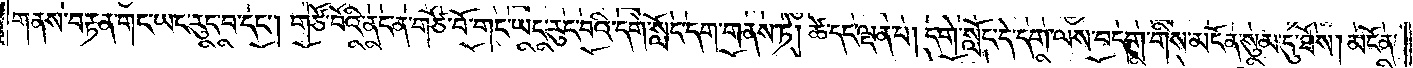གནས་བརྟན་གང་ཡང་རུང་བ་དང༌། གཙོ་བོའི་ནང་ན་གཙོ་བོ་གང་ཡང་རུང་བའི་དགེ་སློང་དག་གནས་ཏེ། ཚེ་དང་ལྡན་པ། དགེ་སློང་དེ་དག་ལས་བདག་གིས་མངོན་སུམ་དུ་ཐོས། མངོན་
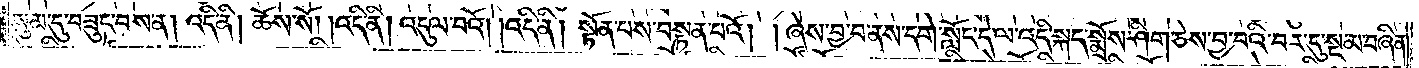སུམ་དུ་བཟུང་བས་ན། འདི་ནི། ཆོས་སོ། །འདི་ནི། འདུལ་བའོ། །འདི་ནི། སྟོན་པས་བསྟན་པའོ། །ཞེས་བྱ་བ་ནས་དགེ་སློང་དེ་ལ་འདི་སྐད་སྨྲོས་ཤིག་ཅེས་བྱ་བའི་བར་དུ་སྔ་མ་བཞིན་
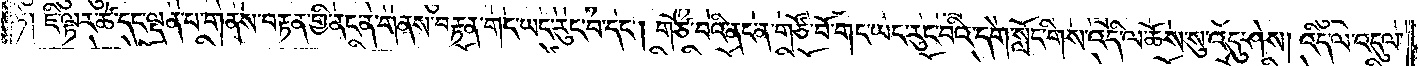ཏེ། ཇི་ལྟར་ཚེ་དང་ལྡན་པ་གནས་བརྟན་གྱི་ནང་ན་གནས་བརྟན་གང་ཡང་རུང་བ་དང༌། གཙོ་བའི་ནང་ན་གཙོ་བོ་གང་ཡང་རུང་བའི་དགེ་སློང་གིས་འདི་ལ་ཆོས་སུ་འདུ་ཤེས། འདི་ལ་འདུལ་
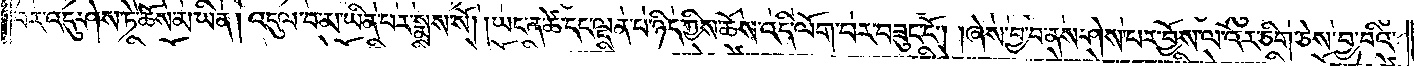བར་འདུ་ཤེས་ཏེ་ཆོས་མ་ཡིན། འདུལ་བ་མ་ཡིན་པར་སྨྲས་སོ། །ཡང་ན་ཚེ་དང་ལྡན་པ་ཉིད་ཀྱིས་ཆོས་འདི་ལོག་པར་བཟུང་ངོ༌། །ཞེས་བྱ་བ་ནས་ཤེས་པར་བྱོས་ལ་འོར་ཅིག་ཅེས་བྱ་བའི་
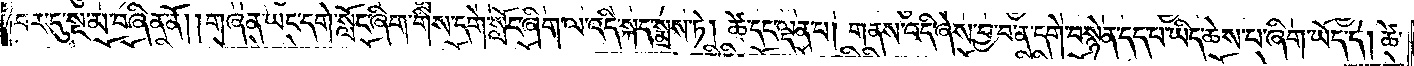བར་དུ་སྔ་མ་བཞིན་ནོ། །གཞན་ཡང་དགེ་སློང་ཞིག་གིས་དགེ་སློང་ཞིག་ལ་འདི་སྐད་སྨྲས་ཏེ། ཚེ་དང་ལྡན་པ། གནས་འདི་ཞེས་བྱ་བ་ན་དགེ་བསྙེན་དད་པ་ཡིད་ཆེས་པ་ཞིག་ཡོད་དེ། ཚེ་
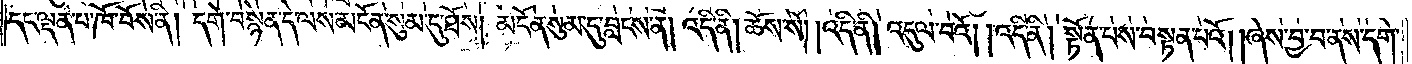དང་ལྡན་པ་ཁོ་བོས་ནི། དགེ་བསྙེན་དེ་ལས་མངོན་སུམ་དུ་ཐོས། མངོན་སུམ་དུ་བླངས་ན། འདི་ནི། ཆོས་སོ། །འདི་ནི། འདུལ་བའོ། །འདི་ནི། སྟོན་པས་བསྟན་པའོ། །ཞེས་བྱ་བ་ནས་དགེ་
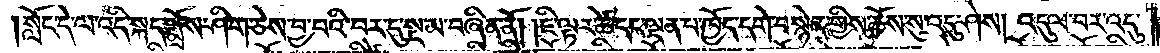སློང་དེ་ལ་འདི་སྐད་སྨྲོས་ཤིག་ཅེས་བྱ་བའི་བར་དུ་སྔ་མ་བཞིན་ནོ། །ཇི་ལྟར་ཚེ་དང་ལྡན་པ་ཁྱོད་དགེ་བསྙེན་གྱིས་ཆོས་སུ་འདུ་ཤེས། འདུལ་བར་འདུ་
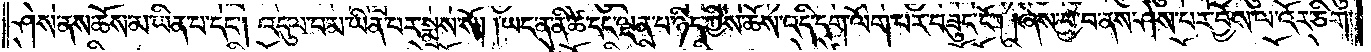ཤེས་ནས་ཆོས་མ་ཡིན་པ་དང༌། འདུལ་བ་མ་ཡིན་པར་སྨྲས་སོ། །ཡང་ན་ནི་ཚེ་དང་ལྡན་པ་ཉིད་ཀྱིས་ཆོས་འདི་དག་ལོག་པར་བཟུང་ངོ༌། །ཞེས་བྱ་བ་ནས་ཤེས་པར་བྱོས་ལ་འོར་ཅིག་
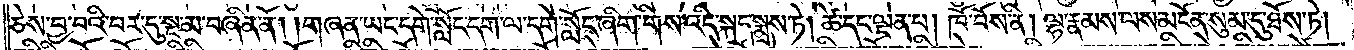ཅེས་བྱ་བའི་བར་དུ་སྔ་མ་བཞིན་ནོ། །གཞན་ཡང་དགེ་སློང་དག་ལ་དགེ་སློང་ཞིག་གིས་འདི་སྐད་སྨྲས་ཏེ། ཚེ་དང་ལྡན་པ། ཁོ་བོས་ནི། ལྷ་རྣམས་ལས་མངོན་སུམ་དུ་ཐོས་ཏེ།
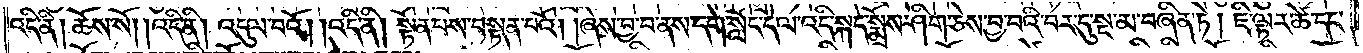འདི་ནི། ཆོས་སོ། །འདི་ནི། འདུལ་བའོ། །འདི་ནི། སྟོན་པས་བསྟན་པའོ། །ཞེས་བྱ་བ་ནས་དགེ་སློང་དེ་ལ་འདི་སྐད་སྨྲོས་ཤིག་ཅེས་བྱ་བའི་བར་དུ་སྔ་མ་བཞིན་ཏེ། ཇི་ལྟར་ཚེ་དང་
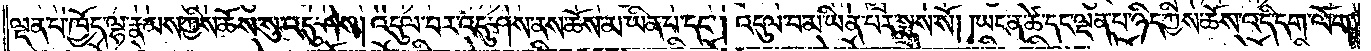ལྡན་པ་ཁྱོད་ལྷ་རྣམས་ཀྱིས་ཆོས་སུ་འདུ་ཤེས། འདུལ་བར་འདུ་ཤེས་ནས་ཆོས་མ་ཡིན་པ་དང༌། འདུལ་བ་མ་ཡིན་པར་སྨྲས་སོ། །ཡང་ན་ཚེ་དང་ལྡན་པ་ཉིད་ཀྱིས་ཆོས་འདི་དག་ལོག་
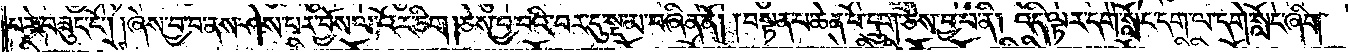པར་བཟུང་ངོ༌། །ཞེས་བྱ་བ་ནས་ཤེས་པར་བྱོས་ལ་འོར་ཅིག །ཅེས་བྱ་བའི་བར་དུ་སྔ་མ་བཞིན་ནོ། །བསྟན་པ་ཆེན་པོ་དྲུག་ཅེས་བྱ་བ་ནི། འདི་ལྟར་དགེ་སློང་དག་ལ་དགེ་སློང་ཞིག་
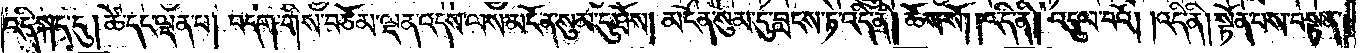འདི་སྐད་དུ། ཚེ་དང་ལྡན་པ། བདག་གིས་བཅོམ་ལྡན་འདས་ལས་མངོན་སུམ་དུ་ཐོས། མངོན་སུམ་དུ་བླངས་ཏེ་འདི་ནི། ཆོས་སོ། །འདི་ནི། འདུལ་བའོ། །འདི་ནི། སྟོན་པས་བསྟན་
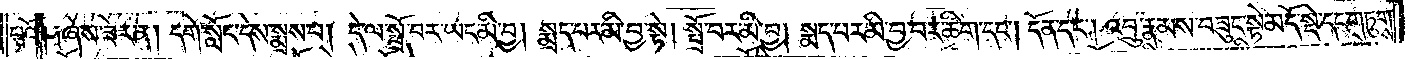པའོ༑ ༑ཞེས་ཟེར་ན། དགེ་སློང་དེས་སྨྲས་པ། དེ་ལ་སྤྲོ་བར་ཡང་མི་བྱ། སྨྲད་པར་མི་བྱ་སྟེ། སྤྲོ་བར་མི་བྱ། སྨད་པར་མི་བྱ་བར་ཚིག་དང༌། དོན་དང༌། འབྲུ་རྣམས་བཟུང་སྟེ་མདོ་སྡེ་དང་གཏུགས་
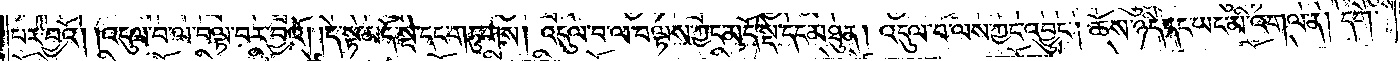པར་བྱའོ། །འདུལ་བ་ལ་བལྟ་བར་བྱའོ། །དེ་སྟེ་མདོ་སྡེ་དང་གཏུགས། འདུལ་བ་ལ་བལྟས་ཀྱང་མདོ་སྡེ་དང་མཐུན། འདུལ་བ་ལས་ཀྱང་འབྱུང༌། ཆོས་ཉིད་དང་ཡང་མི་འགལ་ན། དགེ་
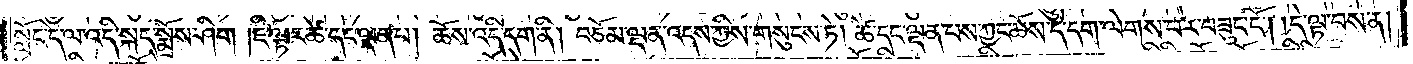སློང་དེ་ལ་འདི་སྐད་སྨྲོས་ཤིག །ཇི་ལྟར་ཚེ་དང་ལྡན་པ། ཆོས་འདི་དག་ནི། བཅོམ་ལྡན་འདས་ཀྱིས་གསུངས་ཏེ། ཚེ་དང་ལྡན་པས་ཀྱང་ཆོས་དེ་དག་ལེགས་པར་བཟུང་ངོ༌། །དེ་ལྟ་བས་ན།
